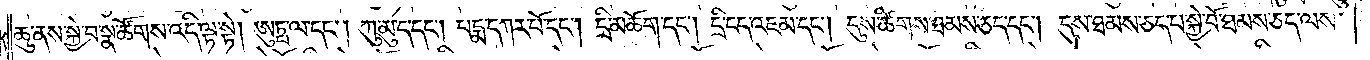ཆུ་ནས་སྐྱེ་བ་སྣ་ཚོགས་འདི་ལྟ་སྟེ། ཨུཏྤ་ལ་དང༌། ཀུ་མུད་དང༌། པདྨ་དཀར་པོ་དང༌། དྲི་མཆོག་དང༌། དྲི་ངད་འཇམ་དང༌། དུས་ཚིགས་ཐམས་ཅད་དང༌། དུས་ཐམས་ཅད་པ་སྐྱེ་བོ་ཐམས་ཅད་ལས་
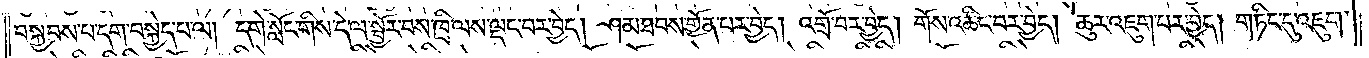བསྐྱབས་པ་དག་བསྐྱེད་པ་ལ། དགེ་སློང་གིས་དེ་ལ་སྦྱོར་བས་ཁྲི་ལས་ལྡང་བར་བྱེད། ཤམ་ཐབས་གྱོན་པར་བྱེད། འགྲོ་བར་བྱེད། གོས་འཆིང་བར་བྱེད། ཆུར་འཇུག་པར་བྱེད། གཏིང་དུ་འཇུག་
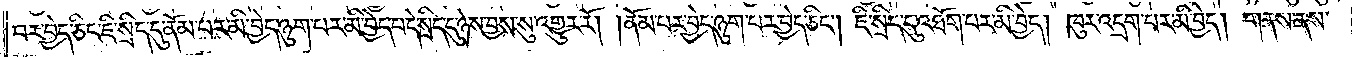པར་བྱེད་ཅིང་ཇི་སྲིད་དུ་ནོམ་པར་མི་བྱེད་ཉུག་པར་མི་བྱེད་པ་དེ་སྲིད་དུ་ཉེས་བྱས་སུ་འགྱུར་རོ། །ནོམ་པར་བྱེད་ཉུག་པར་བྱེད་ཅིང༌། ཇི་སྲིད་དུ་འཐོག་པར་མི་བྱེད། ཁུར་འདྲག་པར་མི་བྱེད། གནས་ནས་
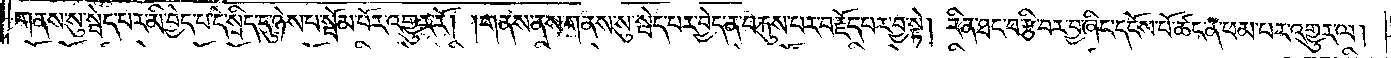གནས་སུ་སྦེད་པར་མི་བྱེད་པ་དེ་སྲིད་དུ་ཉེས་པ་སྦོམ་པོར་འགྱུར་རོ། །གནས་ནས་གནས་སུ་སྦེད་པར་བྱེད་ན་བརྐུས་པར་བརྗོད་པར་བྱ་སྟེ། རིན་ཐང་བརྩི་བར་བྱ་ཞིང་དངོས་པོ་ཚང་ན་ཕམ་པར་འགྱུར་ལ།
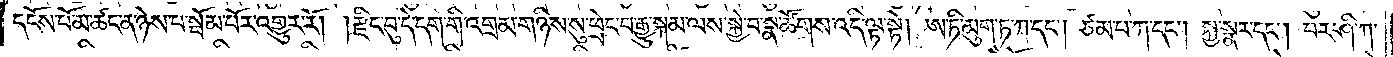དངོས་པོ་མ་ཚང་ན་ཉེས་པ་སྦོམ་པོར་འགྱུར་རོ། །རྫིང་བུ་དེ་དག་གི་འགྲམ་གཉིས་སུ་ཕྲེང་བ་རྒྱུ་སྐམ་ལས་སྐྱེ་བ་སྣ་ཚོགས་འདི་ལྟ་སྟེ། ཨ་ཏི་མུག་ཏ་ཀ་དང༌། ཙམ་པ་ཀ་དང༌། སྐྱ་སྣར་དང༌། པར་ཤི་ཀ་
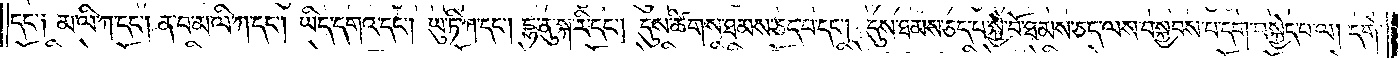དང་༑ མ་ལི་ཀ་དང༌། ན་བ་མ་ལི་ཀ་དང༌། ཡིད་དགའ་དང༌། ཡུ་ཏི་ཤ་དང༌། དྷ་ནུ་སྐ་རི་དང༌། དུས་ཚིགས་ཐམས་ཅད་པ་དང༌། དུས་ཐམས་ཅད་པ་སྐྱེ་བོ་ཐམས་ཅད་ལས་བསྐྱབས་པ་དག་བསྐྱེད་པ་ལ། དགེ་
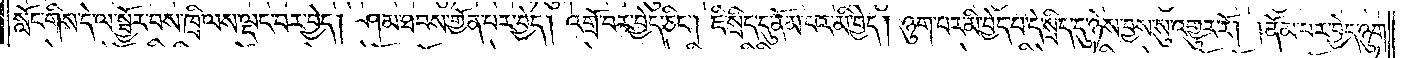སློང་གིས་དེ་ལ་སྦྱོར་བས་ཁྲི་ལས་ལྡང་བར་བྱེད། ཤམ་ཐབས་གྱོན་པར་བྱེད། འགྲོ་བར་བྱེད་ཅིང༌། ཇི་སྲིད་དུ་ནོམ་པར་མི་བྱེད། ཉུག་པར་མི་བྱེད་པ་དེ་སྲིད་དུ་ཉེས་བྱས་སུ་འགྱུར་རོ། །ནོམ་པར་བྱེད་ཉུག་
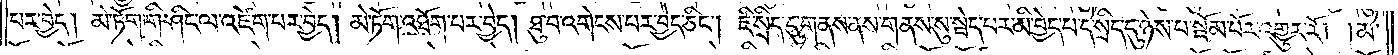པར་བྱེད། མེ་ཏོག་གི་ཤིང་ལ་འཛེག་པར་བྱེད། མེ་ཏོག་འཐོག་པར་བྱེད། ཐུ་བ་འགེངས་པར་བྱེད་ཅིང༌། ཇི་སྲིད་དུ་གནས་ནས་གནས་སུ་སྦེད་པར་མི་བྱེད་པ་དེ་སྲིད་དུ་ཉེས་པ་སྦོམ་པོར་འགྱུར་རོ། །མ་
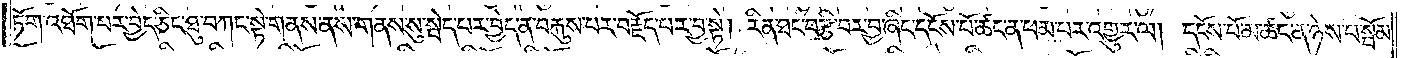ཏོག་འཐོག་པར་བྱེད་ཅིང་ཐུ་བཀང་སྟེ་གནས་ནས་གནས་སུ་སྦེད་པར་བྱེད་ན་བརྐུས་པར་བརྗོད་པར་བྱ་སྟེ། རིན་ཐང་བརྩི་བར་བྱ་ཞིང་དངོས་པོ་ཚང་ན་ཕམ་པར་འགྱུར་ལ། དངོས་པོ་མ་ཚང་ན་ཉེས་པ་སྦོམ་
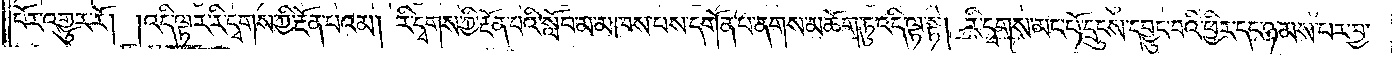པོར་འགྱུར་རོ། །འདི་ལྟར་རི་དྭགས་ཀྱི་རྔོན་པའམ། རི་དྭགས་ཀྱི་རྔོན་པའི་སློབ་མ་མཁས་པས་དགོན་པ་ནགས་མཆོག་ཏུ་འདི་ལྟ་སྟེ། རི་དྭགས་མང་པོ་དྲུངས་དབྱུང་བའི་ཕྱིར་དང་ཉམས་པར་བྱ་
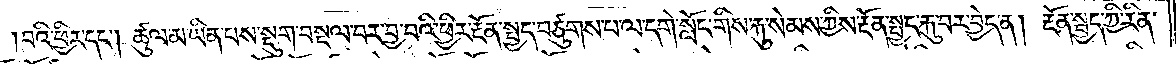།བའི་ཕྱིར་དང༌། ཚུལ་མ་ཡིན་པས་སྡུག་བསྔལ་བར་བྱ་བའི་ཕྱིར་རྔོན་སྤྱད་བཙུགས་པ་ལ་དགེ་སློང་གིས་རྐུ་སེམས་ཀྱིས་རྔོན་སྤྱད་རྐུ་བར་བྱེད་ན། རྔོན་སྤྱད་ཀྱི་རིན་
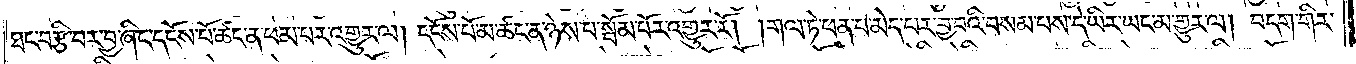ཐང་བརྩི་བར་བྱ་ཞིང་དངོས་པོ་ཚང་ན་ཕམ་པར་འགྱུར་ལ། དངོས་པོ་མ་ཚང་ན་ཉེས་པ་སྦོམ་པོར་འགྱུར་རོ། །གལ་ཏེ་ཕན་པ་མེད་པར་བྱ་བའི་བསམ་པས་དེ་ཡིར་ཡང་མ་གྱུར་ལ། བདག་གིར་
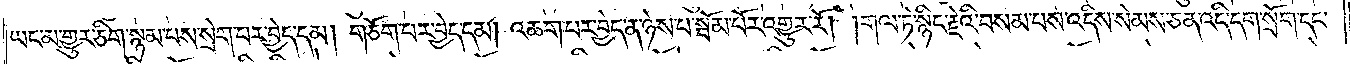ཡང་མ་གྱུར་ཅིག་སྙམ་པས་སྲེག་པར་བྱེད་དམ། གཅོག་པར་བྱེད་དམ། འཆག་པར་བྱེད་ན་ཉེས་པ་སྦོམ་པོར་འགྱུར་རོ། །གལ་ཏེ་སྙིང་རྗེའི་བསམ་པས་འདིས་སེམས་ཅན་འདི་དག་སྲོག་དང་
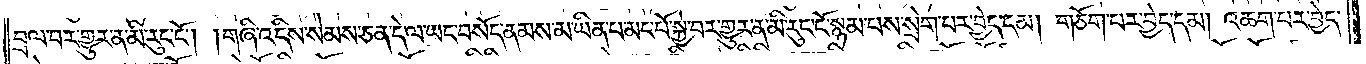བྲལ་བར་གྱུར་ན་མི་རུང་ངོ༌། །གཞི་འདིས་སེམས་ཅན་དེ་ལ་ཡང་བསོད་ནམས་མ་ཡིན་པ་མང་པོ་སྐྱེ་བར་གྱུར་ན་མི་རུང་ངོ་སྙམ་པས་སྲེག་པར་བྱེད་དམ། གཅོག་པར་བྱེད་དམ། འཆག་པར་བྱེད་
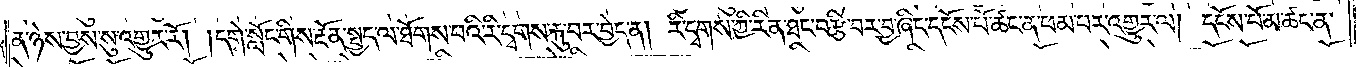ན་ཉེས་བྱས་སུ་འགྱུར་རོ། །དགེ་སློང་གིས་རྔོན་སྤྱད་ལ་ཐོགས་པའི་རི་དྭགས་རྐུ་བར་བྱེད་ན། རི་དྭགས་ཀྱི་རིན་ཐང་བརྩི་བར་བྱ་ཞིང་དངོས་པོ་ཚང་ན་ཕམ་པར་འགྱུར་ལ། དངོས་པོ་མ་ཚང་ན་
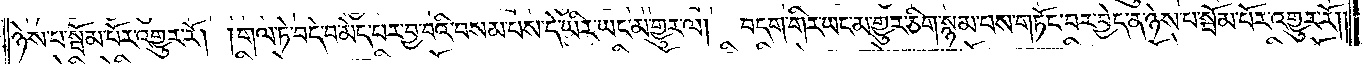ཉེས་པ་སྦོམ་པོར་འགྱུར་རོ། །གལ་ཏེ་བདེ་བ་མེད་པར་བྱ་བའི་བསམ་པས་དེ་ཡིར་ཡང་མ་གྱུར་ལ། བདག་གིར་ཡང་མ་གྱུར་ཅིག་སྙམ་པས་གཏོང་བར་བྱེད་ན་ཉེས་པ་སྦོམ་པོར་འགྱུར་རོ། །
